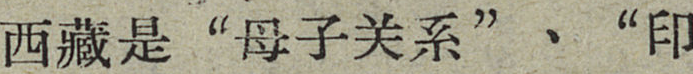西藏是“母子关系”、“印
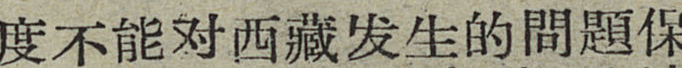度不能对西藏发生的問題保
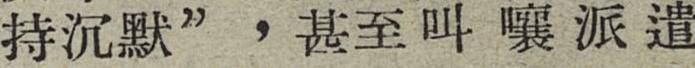持沉默”，甚至叫嚷派遣
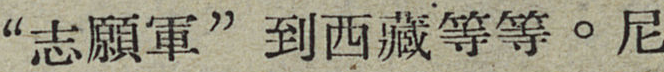“志願軍”到西藏等等。尼
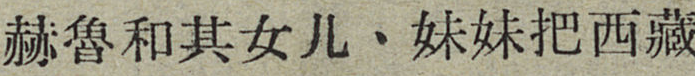赫魯和其女儿、妹妹把西藏
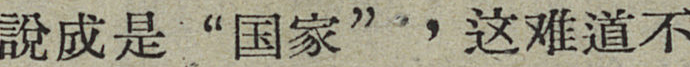說成是“国家”，这难道不
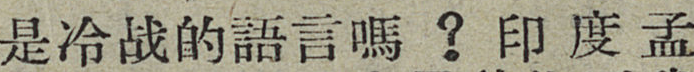是冷战的語言嗎？印度孟
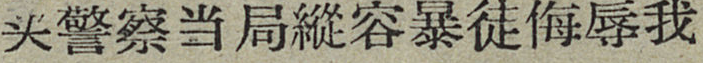买警察当局縱容暴徒侮辱我
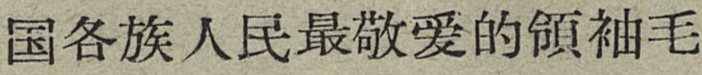国各族人民最敬爱的領袖毛
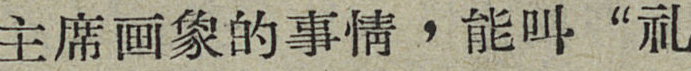主席画象的事情，能叫“礼
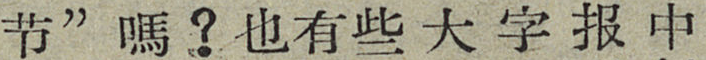节”嗎？也有些大字报中
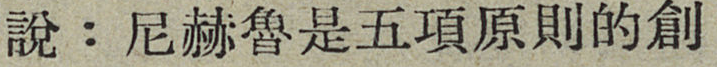說：尼赫魯是五項原則的創
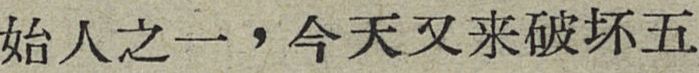始人之一，今天又来破坏五
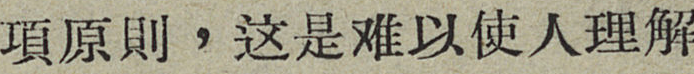項原則，这是难以使人理解
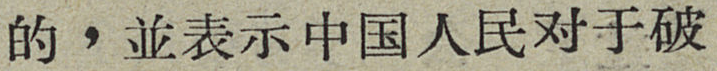的，並表示中国人民对于破
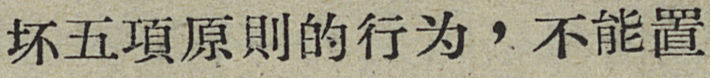怀五項原則的行为，不能置
